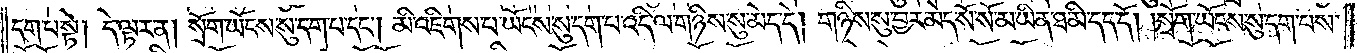དག་པ་སྟེ། དེ་ལྟར་ན། སྲོག་ཡོངས་སུ་དག་པ་དང༌། མི་འཇིགས་པ་ཡོངས་སུ་དག་པ་འདི་ལ་གཉིས་སུ་མེད་དེ། གཉིས་སུ་བྱར་མེད་སོ་སོ་མ་ཡིན་ཐ་མི་དད་དོ། །སྲོག་ཡོངས་སུ་དག་པས་
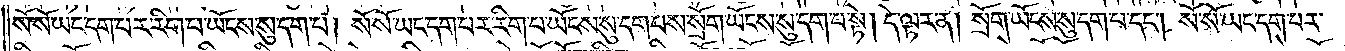སོ་སོ་ཡང་དག་པར་རིག་པ་ཡོངས་སུ་དག་པ། སོ་སོ་ཡང་དག་པར་རིག་པ་ཡོངས་སུ་དག་པས་སྲོག་ཡོངས་སུ་དག་པ་སྟེ། དེ་ལྟར་ན། སྲོག་ཡོངས་སུ་དག་པ་དང༌། སོ་སོ་ཡང་དག་པར་
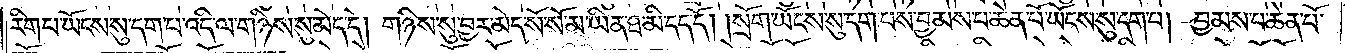རིག་པ་ཡོངས་སུ་དག་པ་འདི་ལ་གཉིས་སུ་མེད་དེ། གཉིས་སུ་བྱར་མེད་སོ་སོ་མ་ཡིན་ཐ་མི་དད་དོ། །སྲོག་ཡོངས་སུ་དག་པས་བྱམས་པ་ཆེན་པོ་ཡོངས་སུ་དག་པ། བྱམས་པ་ཆེན་པོ་
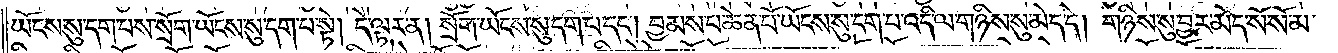ཡོངས་སུ་དག་པས་སྲོག་ཡོངས་སུ་དག་པ་སྟེ། དེ་ལྟར་ན། སྲོག་ཡོངས་སུ་དག་པ་དང༌། བྱམས་པ་ཆེན་པོ་ཡོངས་སུ་དག་པ་འདི་ལ་གཉིས་སུ་མེད་དེ། གཉིས་སུ་བྱར་མེད་སོ་སོ་མ་
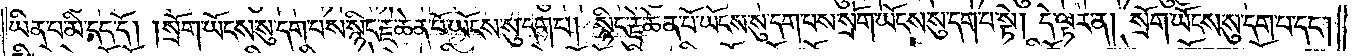ཡིན་པ་མི་དད་དོ། །སྲོག་ཡོངས་སུ་དག་པས་སྙིང་རྗེ་ཆེན་པོ་ཡོངས་སུ་དག་པ། སྙིང་རྗེ་ཆེན་པོ་ཡོངས་སུ་དག་པས་སྲོག་ཡོངས་སུ་དག་པ་སྟེ། དེ་ལྟར་ན། སྲོག་ཡོངས་སུ་དག་པ་དང༌།
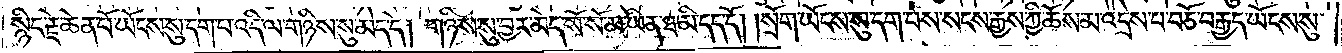སྙིང་རྗེ་ཆེན་པོ་ཡོངས་སུ་དག་པ་འདི་ལ་གཉིས་སུ་མེད་དེ། གཉིས་སུ་བྱར་མེད་སོ་སོ་མ་ཡིན་ཐ་མི་དད་དོ། །སྲོག་ཡོངས་སུ་དག་པས་སངས་རྒྱས་ཀྱི་ཆོས་མ་འདྲེས་པ་བཅོ་བརྒྱད་ཡོངས་སུ་
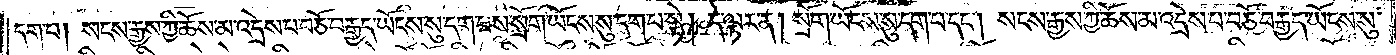དག་པ། སངས་རྒྱས་ཀྱི་ཆོས་མ་འདྲེས་པ་བཅོ་བརྒྱད་ཡོངས་སུ་དག་པས་སྲོག་ཡོངས་སུ་དག་པ་སྟེ། དེ་ལྟར་ན། སྲོག་ཡོངས་སུ་དག་པ་དང༌། སངས་རྒྱས་ཀྱི་ཆོས་མ་འདྲེས་པ་བཅོ་བརྒྱད་ཡོངས་སུ་
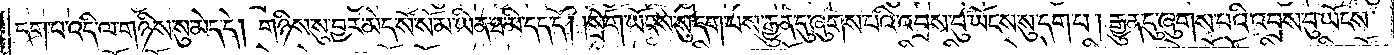དག་པ་འདི་ལ་གཉིས་སུ་མེད་དེ། གཉིས་སུ་བྱར་མེད་སོ་སོ་མ་ཡིན་པ་ཐ་མི་དད་དོ། །སྲོག་ཡོངས་སུ་དག་པས་རྒྱུན་དུ་ཞུགས་པའི་འབྲས་བུ་ཡོངས་སུ་དག་པ། རྒྱུན་དུ་ཞུགས་པའི་འབྲས་བུ་ཡོངས་
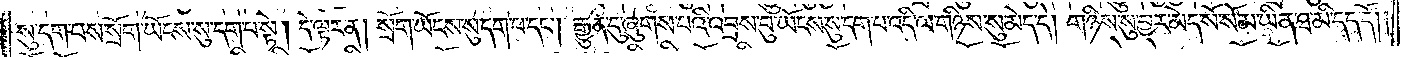སུ་དག་པས་སྲོག་ཡོངས་སུ་དག་པ་སྟེ། དེ་ལྟར་ན། སྲོག་ཡོངས་སུ་དག་པ་དང༌། རྒྱུན་དུ་ཞུགས་པའི་འབྲས་བུ་ཡོངས་སུ་དག་པ་འདི་ལ་གཉིས་སུ་མེད་དེ། གཉིས་སུ་བྱར་མེད་སོ་སོ་མ་ཡིན་ཐ་མི་དད་དོ། །
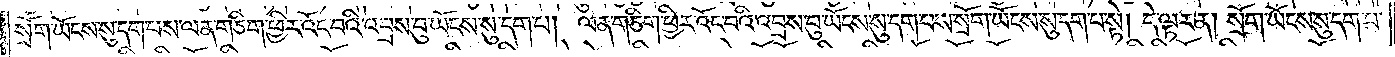སྲོག་ཡོངས་སུ་དག་པས་ལན་ཅིག་ཕྱིར་འོང་བའི་འབྲས་བུ་ཡོངས་སུ་དག་པ། ལན་ཅིག་ཕྱིར་འོང་བའི་འབྲས་བུ་ཡོངས་སུ་དག་པས་སྲོག་ཡོངས་སུ་དག་པ་སྟེ། དེ་ལྟར་ན། སྲོག་ཡོངས་སུ་དག་པ་
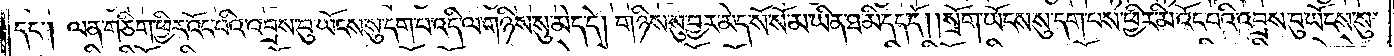དང༌། ལན་ཅིག་ཕྱིར་འོང་བའི་འབྲས་བུ་ཡོངས་སུ་དག་པ་འདི་ལ་གཉིས་སུ་མེད་དེ། གཉིས་སུ་བྱར་མེད་སོ་སོ་མ་ཡིན་ཐ་མི་དད་དོ། །སྲོག་ཡོངས་སུ་དག་པས་ཕྱིར་མི་འོང་བའི་འབྲས་བུ་ཡོངས་སུ་
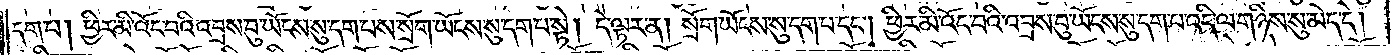དག་པ། ཕྱིར་མི་འོང་བའི་འབྲས་བུ་ཡོངས་སུ་དག་པས་སྲོག་ཡོངས་སུ་དག་པ་སྟེ། དེ་ལྟར་ན། སྲོག་ཡོངས་སུ་དག་པ་དང༌། ཕྱིར་མི་འོང་བའི་འབྲས་བུ་ཡོངས་སུ་དག་པ་འདི་ལ་གཉིས་སུ་མེད་དེ།
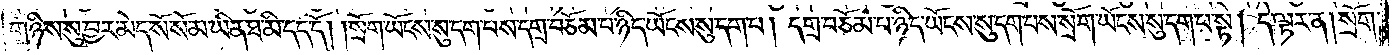གཉིས་སུ་བྱར་མེད་སོ་སོ་མ་ཡིན་ཐ་མི་དད་དོ། །སྲོག་ཡོངས་སུ་དག་པས་དགྲ་བཅོམ་པ་ཉིད་ཡོངས་སུ་དག་པ། དགྲ་བཅོམ་པ་ཉིད་ཡོངས་སུ་དག་པས་སྲོག་ཡོངས་སུ་དག་པ་སྟེ། དེ་ལྟར་ན། སྲོག་
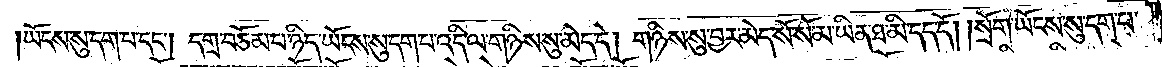ཡོངས་སུ་དག་པ་དང༌། དགྲ་བཅོམ་པ་ཉིད་ཡོངས་སུ་དག་པ་འདི་ལ་གཉིས་སུ་མེད་དེ། གཉིས་སུ་བྱར་མེད་སོ་སོ་མ་ཡིན་ཐ་མི་དད་དོ། །སྲོག་ཡོངས་སུ་དག་པ་
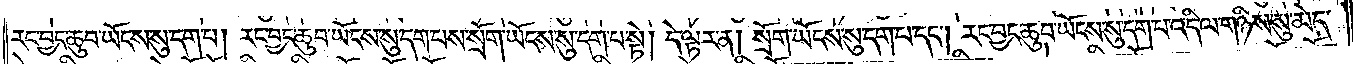རང་བྱང་ཆུབ་ཡོངས་སུ་དག་པ་དང༌། རང་བྱང་ཆུབ་ཡོངས་སུ་དག་པས་སྲོག་ཡོངས་སུ་དག་པ་སྟེ། དེ་ལྟར་ན། སྲོག་ཡོངས་སུ་དག་པ་དང༌། རང་བྱང་ཆུབ་ཡོངས་སུ་དག་པ་འདི་ལ་གཉིས་སུ་མེད་
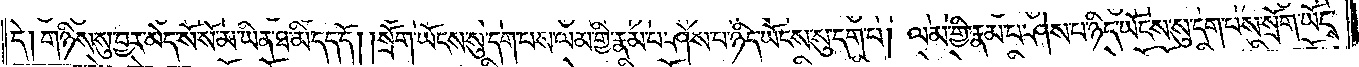དེ། གཉིས་སུ་བྱར་མེད་སོ་སོ་མ་ཡིན་ཐ་མི་དད་དོ། །སྲོག་ཡོངས་སུ་དག་པས་ལམ་གྱི་རྣམ་པ་ཤེས་པ་ཉིད་ཡོངས་སུ་དག་པ། ལམ་གྱི་རྣམ་པ་ཤེས་པ་ཉིད་ཡོངས་སུ་དག་པས་སྲོག་ཡོངས་
